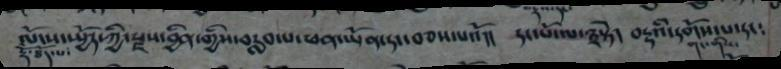ལོངས་སྤྱོད་ཀྱི་རྫས་བྱི་གྱིས་བརླབ་པ་ཕན་ཡོན་དང་བཅས་པའོ།།  དང་པོ་ལ་༣སྟེ།  བརྡའི་དགོས་པ་དང༴
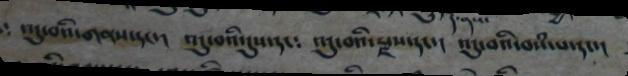འདུ་བའི་གནས་དང་།  འདུ་བའི་དུས་དང༴  འདུ་བའི་རྫས་དང་།  འདུ་བའི་བསཾ་པ་དང་།
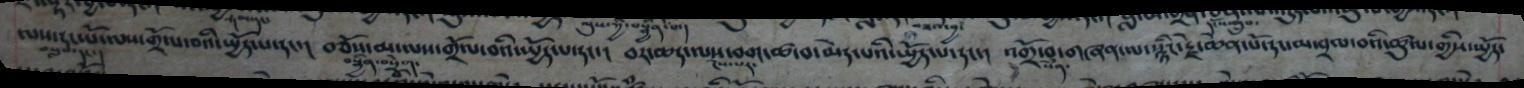ལས་དང་པོ་ལས་གྲོལ་བའི་སྤྱོད་པ་དང་།  བཅོས་མ་ལས་གྲོལ་བའི་སྤྱོད་པ་དང་།  བར་ཆད་ལས་བག་ཚ་བ་མེད་པའི་སྤྱོད་པ་དང་། འགྲོ་བ་གཞན་ལ་སྙིང་རྗེ་ཆེན་པོ་དང་མ་བྲལ་བའི་ཚུལ་གྱིས་སྤྱོད་
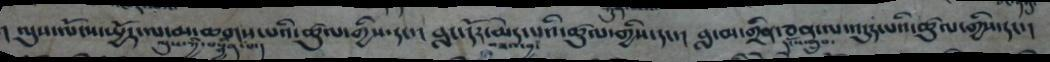།  ལུས་ལོངས་སྤྱོད་ལ་མ་ཆགས་པའི་ཚུལ་གྱིས་དང་།   བླང་དོར་མེད་པའི་ཚུལ་གྱིས་དང་།   བླ་མ་གྲིན་ཅན་ལ་འདུད་པའི་ཚུལ་གྱིས་དང་།
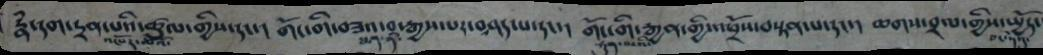རྣཾ་དག་དྲན་པའི་ཚུལ་གྱིས་དང་།   གོང་གི་བཟའ་བ་རྒྱས་པར་བཤད་པ་དང་།   གོང་གི་རྒྱན་གྱི་འཕྲོས་བསྟན་པ་དང་།   ཆགས་བྲལ་གྱིས་སྤྱོད་
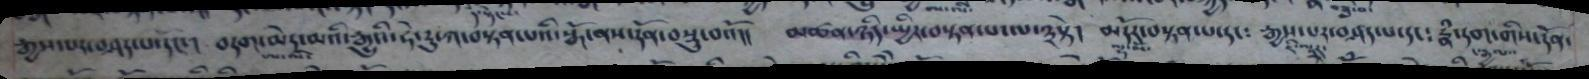རྒྱས་པར་བཤད་པ་དང་།   བདག་མེད་མའི་རྒྱུའི་ཧེ་རུ་ཀ་བསྟན་པའི་སྒོ་ནས་དོན་བསྡུ་བའོ།།   མཚན་ཉིད་སྤྱིར་བསྟན་པ་ལ་༣སྟེ།   མདོར་བསྟན་པ་དང༴   རྒྱས་པར་བཤད་པ་དང༴  རྣཾ་དག་གིས་དོན་
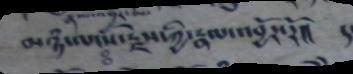མཉཾ་ལ་ཐོས་རྗེས་ཀྱི་རྣལ་འབྱོར་རོ།།  །
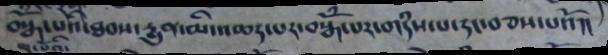བསྒོ་པའི་ཐབས་དྱུན་མི་འཆད་པར་བསྒོཾ་པར་གདཾས་པ་དང་བཅས་པའོ།།
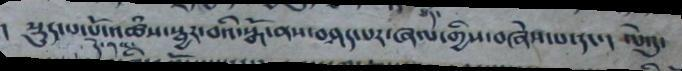སྡུད་པ་པ་འཚཾས་སྦྱར་བའི་སྒོ་ནས་བཤད་པར་ཞལ་གྱིས་བཞེས་པ་དང་།  ལེའུ་
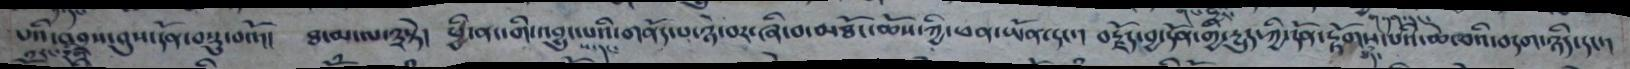པའི་འབྲས་བུས་དོན་བསྡུ་བའོ།།   ཐ་མ་ལ༣སྟེ།  ཕྱི་ངན་གི་འབྱུང་པའི་གནོད་པ་ཉེ་བར་ཞི་བ་མཐོང་ཆོས་ཀྱི་ཕན་ཡོན་དང་།  བརྗོད་བྱ་དོན་གྱི་དྱུད་ཀྱི་དོན་རྟོགས་པའི་ཆེ་བའི་བདག་ཉིད་དང་།
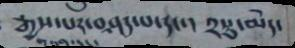རྒྱས་པར་བཤད་པ་དང་།  ༢སུ་མེད་
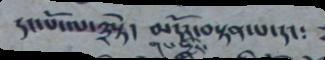དང་པོ་ལ་༣སྟེ།  མདོར་བསྟན་པ་དང༴
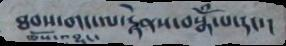ཐབས་གང་ལ་རྟེནས་བསྒོཾ་པ་དང་།
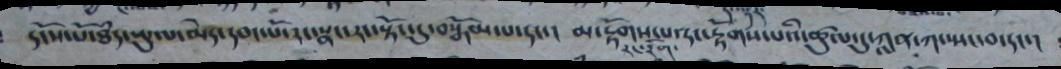དངོས་པོ་ཐཾད་ཡུལ་མེད་དབང་པོ་རང་སྣང་རང་སྟོང་དུ་བསྒོམ་པ་དང་།   མ་རྟོགས་པ་རང་རྟོགས་པའི་ཚུལ་དུ་ཀླན་ཀ་སྤང་བ་དང་།
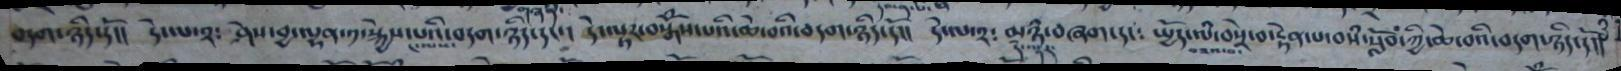བདག་ཉིད་དོ།།   དེ་ལ་༢༴  ཤེས་བྱ་ལྷན་༡་སྐྱེས་པའི་བདག་ཉིད་དང་།   དེ་ལྟར་བསྒོས་པའི་ཆེ་བའི་བདག་ཉིད་དོ།།   དེ་ལ་༢༴  མཉཾ་བཞག་དང༴    སྤྱོད་ལཾ་་བསྲེ་བ་རྟེན་པ་བསཾ་སློབ་ཀྱི་ཆེ་བའི་བདག་ཉིད་དོ།།
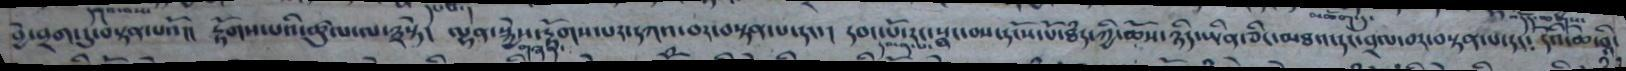བྱེ་བྲག་དུ་བསྟན་པའོ།།   རྟོགས་པའི་ཚུལ་ལ་༣སྟེ།  ལྷན་སྐྱེས་རྟོགས་པར་དཀའ་བར་བསྟན་པ་དང་།   དབང་པོ་རང་སྣང་བས་དངོས་པོ་ཐཾད་ཀྱི་ཆོས་ཉིད་ཡིན་ཅིང་མཐའ་དང་བྲལ་བར་བསྟན་པ་དང༴   དེའི་ཆེ་བྰི་
